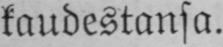kaudestansa.
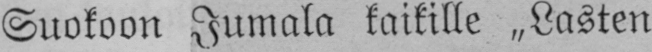Suokoon Jumala kaikille „Lasten
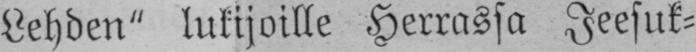Lehden" lukijoille Herrassa Jeesuk-
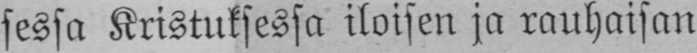sessa Kristuksessa iloisen ja rauhaisan
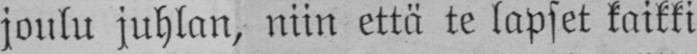joulu juhlan, niin että te lapset kaikki
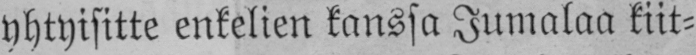yhtyisitte enkelien kanssa Jumalaa kiit-
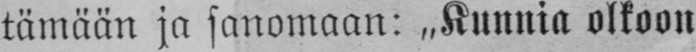tämään ja sanomaan: „Kunnia olkoon
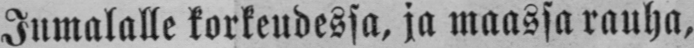Jumalalle korkeudessa, ja maassa rauha,
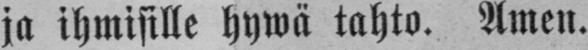ja ihmisille hywä tahto. Amen.
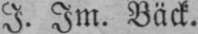I. Jm. Bäck.
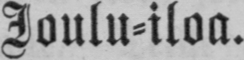Joulu-iloa.
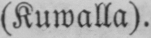(Kuwalla).
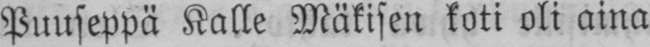Puuseppä Kalle Mäkisen koti oli aina
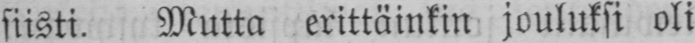siisti. Mutta erittäinkin jouluksi oli
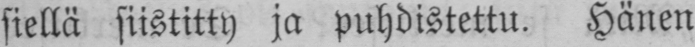siellä siistitty ja puhdistettu. Hänen
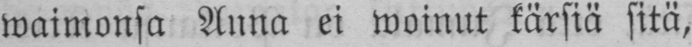waimonsa Anna ei woinut kärsiä sitä,
